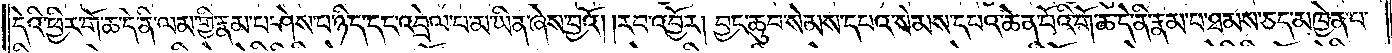དེའི་ཕྱིར་གོ་ཆ་དེ་ནི་ལམ་གྱི་རྣམ་པ་ཤེས་པ་ཉིད་དང་འབྲེལ་པ་མ་ཡིན་ཞེས་བྱའོ། །རབ་འབྱོར། བྱང་ཆུབ་སེམས་དཔའ་སེམས་དཔའ་ཆེན་པོའི་གོ་ཆ་དེ་ནི་རྣམ་པ་ཐམས་ཅད་མཁྱེན་པ་
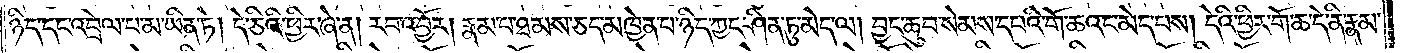ཉིད་དང་འབྲེལ་པ་མ་ཡིན་ཏེ། དེ་ཅིའི་ཕྱིར་ཞེ་ན། རབ་འབྱོར། རྣམ་པ་ཐམས་ཅད་མཁྱེན་པ་ཉིད་ཀྱང་ཤིན་ཏུ་མེད་ལ། བྱང་ཆུབ་སེམས་དཔའི་གོ་ཆའང་མེད་པས། དེའི་ཕྱིར་གོ་ཆ་དེ་ནི་རྣམ་
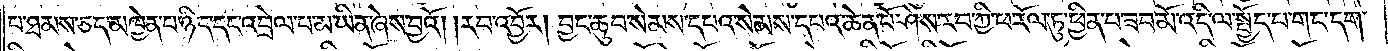པ་ཐམས་ཅད་མཁྱེན་པ་ཉིད་དང་འབྲེལ་པ་མ་ཡིན་ཞེས་བྱའོ། །རབ་འབྱོར། བྱང་ཆུབ་སེམས་དཔའ་སེམས་དཔའ་ཆེན་པོ་ཤེས་རབ་ཀྱི་ཕ་རོལ་ཏུ་ཕྱིན་པ་ཟབ་མོ་འདི་ལ་སྤྱོད་པ་གང་དག་
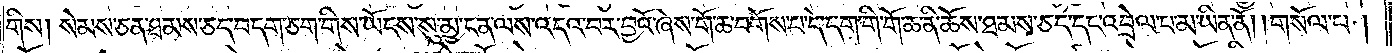གིས། སེམས་ཅན་ཐམས་ཅད་བདག་ཅག་གིས་ཡོངས་སུ་མྱ་ངན་ལས་འདའ་བར་བྱའོ་ཞེས་གོ་ཆ་བགོས་བ་དེ་དག་གི་གོ་ཆ་ནི་ཆོས་ཐམས་ཅད་དང་འབྲེལ་པ་མ་ཡིན་ནོ། །གསོལ་པ།
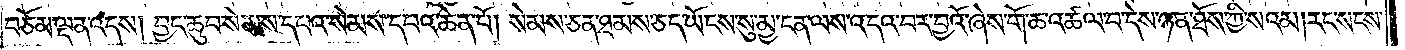བཅོམ་ལྡན་འདས། བྱང་ཆུབ་སེམས་དཔའ་སེམས་དཔའ་ཆེན་པོ། སེམས་ཅན་ཐམས་ཅད་ཡོངས་སུ་མྱ་ངན་ལས་འདའ་བར་བྱའོ་ཞེས་གོ་ཆ་འཚལ་བ་དེས་ཉན་ཐོས་ཀྱི་སའམ། རང་སངས་
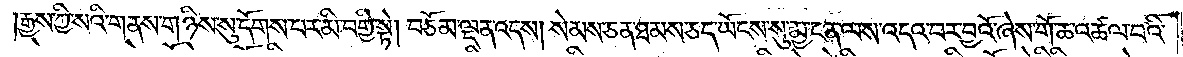རྒྱས་ཀྱི་སའི་གནས་གཉིས་སུ་དོགས་པར་མི་བགྱི་སྟེ། བཅོམ་ལྡན་འདས། སེམས་ཅན་ཐམས་ཅད་ཡོངས་སུ་མྱ་ངན་ལས་འདའ་བར་བྱའོ་ཞེས་གོ་ཆ་འཚལ་བའི་
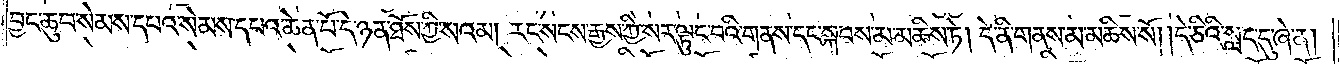བྱང་ཆུབ་སེམས་དཔའ་སེམས་དཔའ་ཆེན་པོ་དེ་ཉན་ཐོས་ཀྱི་སའམ། རང་སངས་རྒྱས་ཀྱི་སར་ལྟུང་བའི་གནས་དང་སྐབས་མ་མཆིས་ཏེ། དེ་ནི་གནས་མ་མཆིས་སོ། །དེ་ཅིའི་སླད་དུ་ཞེ་ན།
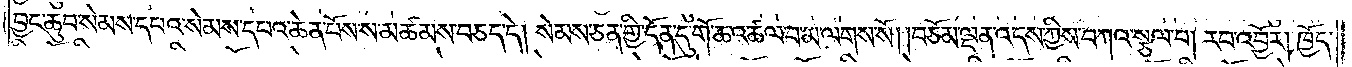བྱང་ཆུབ་སེམས་དཔའ་སེམས་དཔའ་ཆེན་པོས་ས་མཚམས་བཅད་དེ། སེམས་ཅན་གྱི་དོན་དུ་གོ་ཆ་འཚལ་བ་མ་ལགས་སོ། །བཅོམ་ལྡན་འདས་ཀྱིས་བཀའ་སྩལ་པ། རབ་འབྱོར། ཁྱོད་
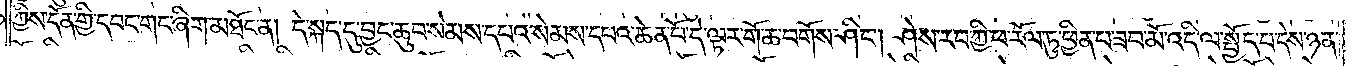ཀྱིས་དོན་གྱི་དབང་གང་ཞིག་མཐོང་ན། དེ་སྐད་དུ་བྱང་ཆུབ་སེམས་དཔའ་སེམས་དཔའ་ཆེན་པོ་དེ་ལྟར་གོ་ཆ་བགོས་ཤིང༌། ཤེས་རབ་ཀྱི་ཕ་རོལ་ཏུ་ཕྱིན་པ་ཟབ་མོ་འདི་ལ་སྤྱོད་པ་དེས་ཉན་
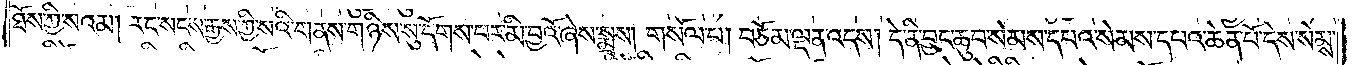ཐོས་ཀྱི་སའམ། རང་སངས་རྒྱས་ཀྱི་སའི་གནས་གཉིས་སུ་དོགས་པར་མི་བྱའོ་ཞེས་སྨྲས། གསོལ་པ། བཅོམ་ལྡན་འདས། དེ་ནི་བྱང་ཆུབ་སེམས་དཔའ་སེམས་དཔའ་ཆེན་པོ་དེས་སེམས་
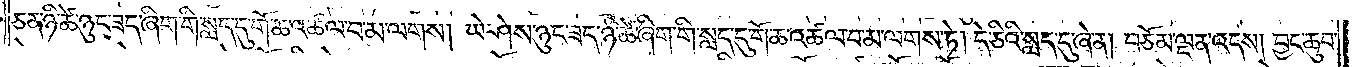ཅན་ཉི་ཚེ་ཉུང་ཟད་ཞིག་གི་སླད་དུ་གོ་ཆ་འཚལ་བ་མ་ལགས། ཡེ་ཤེས་ཉུང་ཟད་ཉི་ཚེ་ཞིག་གི་སླད་དུ་གོ་ཆ་འཚལ་བ་མ་ལགས་ཏེ། དེ་ཅིའི་སླད་དུ་ཞེ་ན། བཅོམ་ལྡན་འདས། བྱང་ཆུབ་
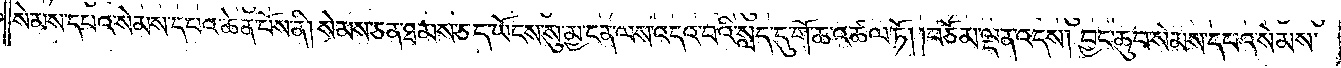སེམས་དཔའ་སེམས་དཔའ་ཆེན་པོས་ནི། སེམས་ཅན་ཐམས་ཅད་ཡོངས་སུ་མྱ་ངན་ལས་འདའ་བའི་སླད་དུ་གོ་ཆ་འཚལ་ཏོ། །བཅོམ་ལྡན་འདས། བྱང་ཆུབ་སེམས་དཔའ་སེམས་
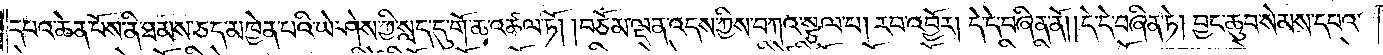དཔའ་ཆེན་པོས་ནི་ཐམས་ཅད་མཁྱེན་པའི་ཡེ་ཤེས་ཀྱི་སླད་དུ་གོ་ཆ་འཚལ་ཏོ། །བཅོམ་ལྡན་འདས་ཀྱིས་བཀའ་སྩལ་པ། རབ་འབྱོར། དེ་དེ་བཞིན་ནོ། །དེ་དེ་བཞིན་ཏེ། བྱང་ཆུབ་སེམས་དཔའ་
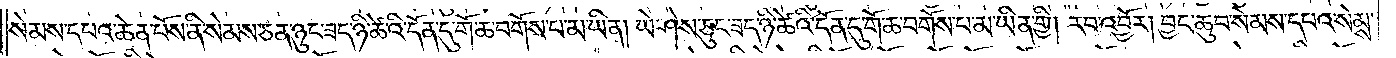སེམས་དཔའ་ཆེན་པོས་ནི་སེམས་ཅན་ཉུང་ཟད་ཉི་ཚེའི་དོན་དུ་གོ་བགོས་པ་མ་ཡིན། ཡེ་ཤེས་ཅུང་ཟད་ཉི་ཚེའི་དོན་དུ་གོ་ཆ་བགོས་པ་མ་ཡིན་གྱི། རབ་འབྱོར། བྱང་ཆུབ་སེམས་དཔའ་སེམས་
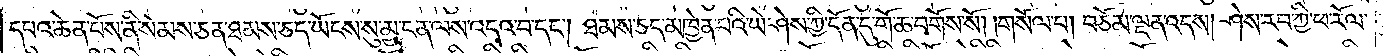དཔའ་ཆེན་པོས་ནི་སེམས་ཅན་ཐམས་ཅད་ཡོངས་སུ་མྱ་ངན་ལས་འདའ་བ་དང༌། ཐམས་ཅད་མཁྱེན་པའི་ཡེ་ཤེས་ཀྱི་དོན་དུ་གོ་ཆ་བགོས་སོ། །གསོལ་པ། བཅོམ་ལྡན་འདས། ཤེས་རབ་ཀྱི་ཕ་རོལ་
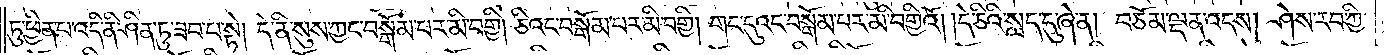ཏུ་ཕྱིན་པ་འདི་ནི་ཤིན་ཏུ་ཟབ་པ་སྟེ། དེ་ནི་སུས་ཀྱང་བསྒོམ་པར་མི་བགྱི། ཅིའང་བསྒོམ་པར་མི་བགྱི། གང་དུའང་བསྒོམ་པར་མི་བགྱིའོ། །དེ་ཅིའི་སླད་དུ་ཞེ་ན། བཅོམ་ལྡན་འདས། ཤེས་རབ་ཀྱི་
